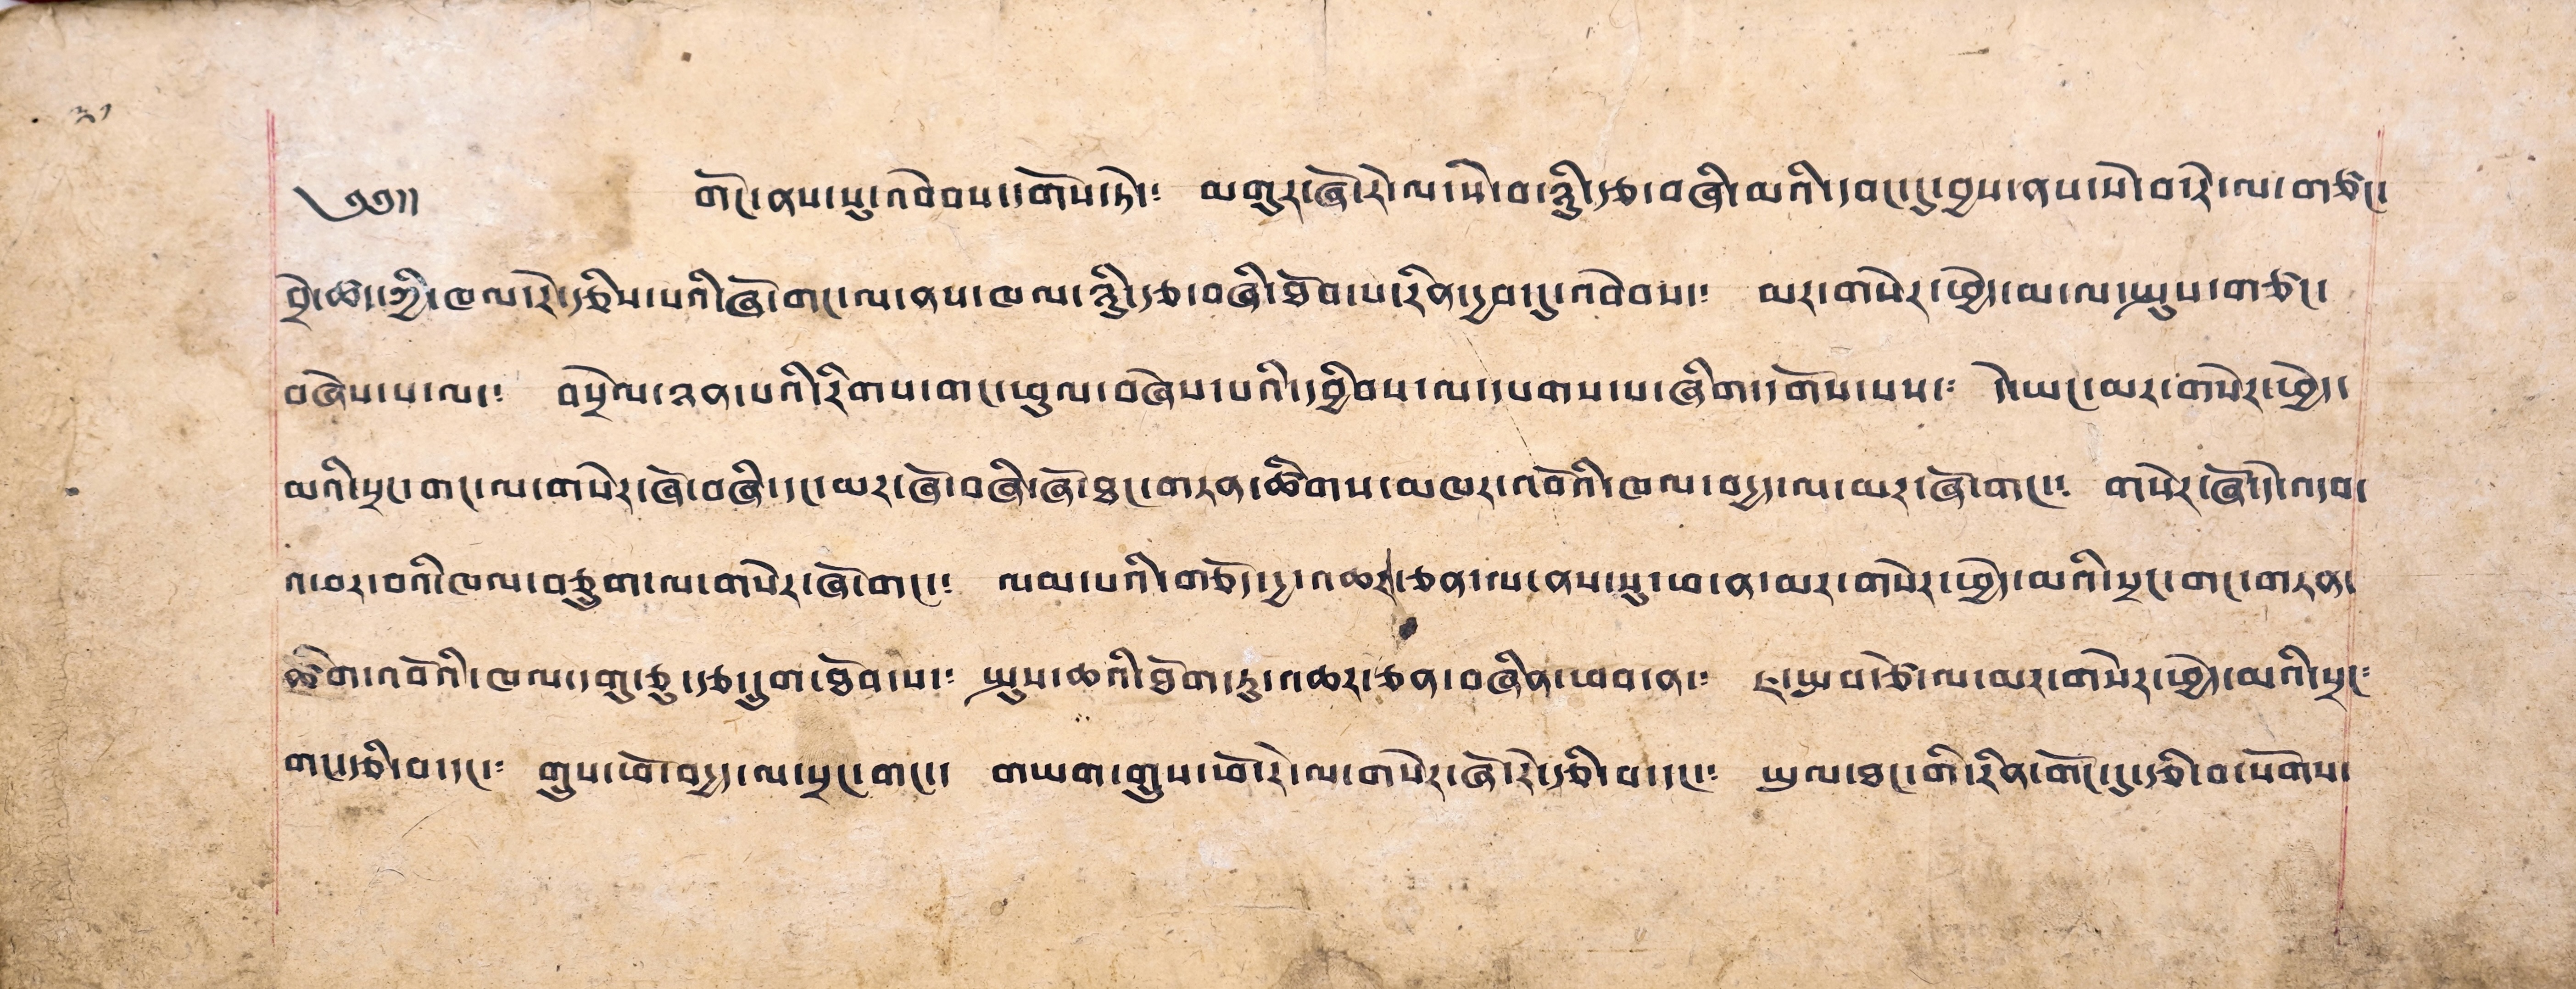༣༡
༄༅།། གོང་ནས་སུ་འབེབས་དགོས་ཏེ་༴ མགུར་ཞོ་རེ་ལ་སེ་བ་ཉིུ་རྩ་བཞི་མའི་དབང་དུ་བྱས་ནས་སེ་བ་རེ་ལ་གཙང་
བྲེ་ཚད་ཀྱི་ཁལ་རེ་རྩིས་པའི་ཞོ་གང་ལ་ནས་ཁལ་ཉིུ་རྩ་བཞི་ཐོབ་པ་རིན་དྱབ་དུ་འབེབས་༴ མར་གསེར་ཕྱེད་མ་ལ་སྤུས་གཙང་།
བཞེས་པ་ལ་༴ བསྲེལ་ཉན་པའི་རིགས་གང་ཕུལ་བཞེས་པའི་དབྱིབས་ལ་དཔགས་པ་ཞིག་དགོས་པས་༴ དེ་ཡང་མར་གསེར་ཕྱེད་
མའི་སྲང་གང་ལ་གསེར་ཞོ་བཞི་དང་མར་ཞོ་བཞི་ཞོ་ཐང་གཏན་ཚིགས་མཁར་འབོའི་ཁལ་བདྱད་ལ་མར་ཞོ་གང་༴ གསེར་ཞོ་དེ་འདབ་
འཕར་བའི་ཁལ་བཅུག་ལ་གསེར་ཞོ་གང་༴ ལམ་པའི་གཅོད་དྱ་འཆར་ཅན་ལ་ནས་སུ་ཕ་ན་མར་གསེར་ཕྱེད་མའི་སྲང་གང་གཏན་
ཚིག་འབོའི་ཁལ་དགུ་ཅུ་རྩ་དྲུག་ཐོབ་པ་༴ སྤུས་ཆའི་ཐོག་ཏུ་འཆར་ཅན་བཞིན་ཕབ་ན་༴ ཇ་སྤབ་རྩེ་ལ་མར་གསེར་ཕྱེད་མའི་སྲང༴
གང་རྩི་བ་དང་༴ གྲུས་ཕོ་བདྱད་ལ་སྲིང་གང་༴ གཡག་གྲུས་ཕོ་རེ་ལ་གསེར་ཞོ་རེ་རྩི་བ་དང་༴ ཡུལ་ཐང་གི་རིན་གོང་དུ་རྩི་བ་སོགས་
